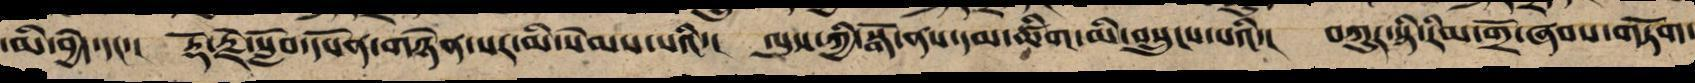་མི་བྱེད་དང་། རྡོ་རྗེ་སློབ་དཔོན་གཉེན་པར་མི་སེམས་པའི་། ལུས་ཀྱི་སྒོ་ནས་དམ་ཚིག་མི་བསྲུངས་པའི་། བཀུར་སྡི་རིམ་གྲོ་ཞབས་གཏོག་
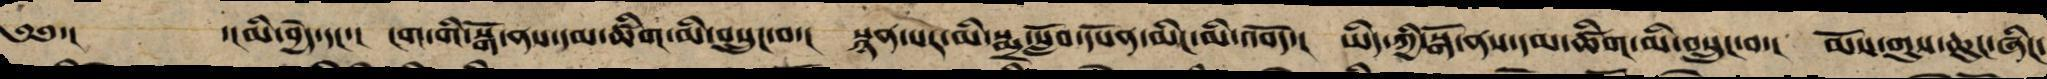༄༅་། ་།མི་བྱེད་དང་། ངག་གི་སྒོ་ནས་དམ་ཚིག་མི་བསྲུང་བ་། སྙན་པར་མི་སྨྲ་སློབ་དཔོན་མིང་མི་འབོད་། ཡིད་ཀྱི་སྒོ་ནས་དམ་ཚིག་མི་བསྲུང་བ་། མོས་གུས་ཆུང་ཞིང་
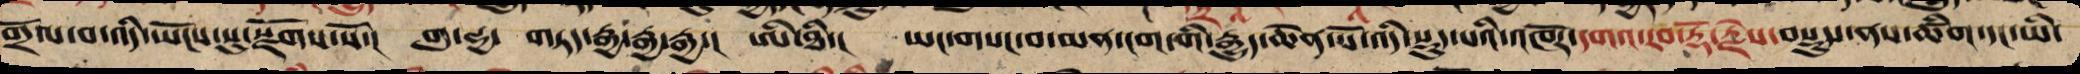གྲོལ་བ་འདི་ཡོངས་སུ་སྫོགས་སོ་། གུ་ཧྱ་ གཏད་རྒྱ་རྒྱ་རྒྱ་། ཨི་ཐི་། ཡང་གསང་བ་མན་ངག་གི་རྒྱུད་ཆེན་པོ་འདི་སྡུད་པའི་འཁོར་དགའ་རབ་རྡོ་རྗེས་བསྡུས་ནས་ཚིག་དང་ཡི་
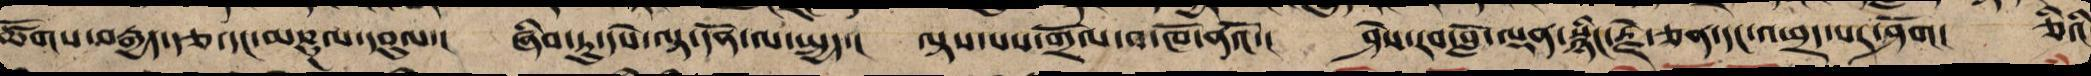ཚོགས་བརྒྱད་རྩ་དང་མཎྜལ་དབུལ་། ཞིབ་ཏུ་དཔེ་ལྟ་དོན་ལ་སྤྱད་། ལྟས་པས་གྲོལ་བ་ཁོ་ནའོ་། ཤེས་རབ་བློ་ལྡན་སྙིང་རྗེ་ཅན་དང་འཕྲད་པར་ཤོག། ཅིའི
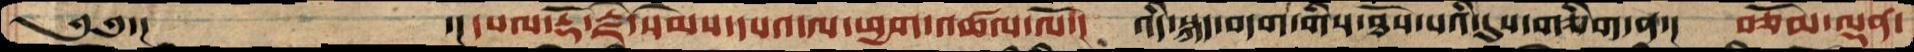༄༅་།    ་།དཔལ་རྡོ་རྗེ་སེམས་དཔའ་ལ་ཕྱག་འཚལ་ལོ་།  འདི་སྐད་བདག་གིས་ཐོས་པའི་དུས་གཅིག་ན་།  བཅོམ་ལྡན་
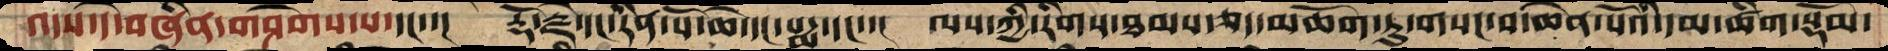འདས་དེ་བཞིན་གཤེགས་པ་དང་་།།  རྡོ་རྗེ་དང་རིན་པོ་ཆེ་དང་པདྨ་དང་་།  ལས་ཀྱི་རིགས་ཐམས་ཅད་མཆོག་ཏུ་གསང་བ་ཆེན་པོའི་དམ་ཚིག་སྡོམ་
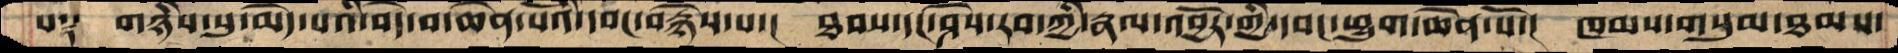པ༑   གཉིས་སུ་མེད་པའི་བདེ་བ་ཆེན་པོའི་དབང་བརྙེས་པ་།  ཐབས་དང་ཤེས་རབ་ཀྱི་རྣལ་འབྱོར་གྱི་དབང་ཕྱུག་ཆེན་པོ་།  ཁམས་གསུམ་ཐམས་
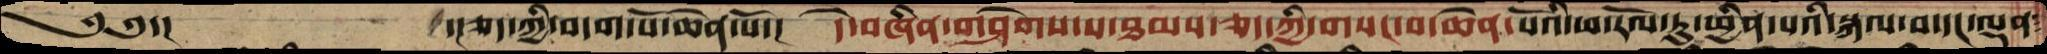༄༅་།            ་།ཅད་ཀྱི་བདག་པོ་ཆེན་པོ་།  དེ་བཞིན་གཤེགས་པ་ཐམས་ཅད་ཀྱི་གསང་བ་ཆེན་པོའི་ཕ་རོལ་ཏུ་ཕྱིན་པའི་སྐལ་བ་དང་ལྡན་
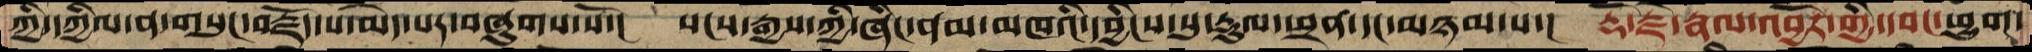ཀྱི་དཀྱིལ་ན་གསུང་བརྗོད་པ་མེད་པར་བཞུགས་སོ་།  སངས་རྒྱས་ཀྱི་ཞིང་ནམ་མཁའི་དབྱིངས་སུ་རྡུལ་ཕྲན་དང་མཉམ་པ་།  རྡོ་རྗེ་རྣལ་འབྱོར་གྱི་དབང་ཕྱུག་
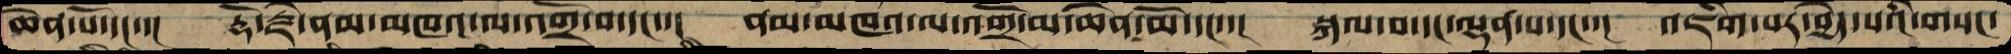ཆེན་པོ་དང་་།  རྡོ་རྗེ་ནམ་མཁའ་ལ་འགྲོ་བ་དང་་།  ནམ་མཁའ་ལ་འགྲོ་མ་ཆེན་མོ་དང་་།  སྐལ་བ་དང་ལྡན་པ་དང་་།  འཇིག་པར་བྱེད་པའི་གསང་
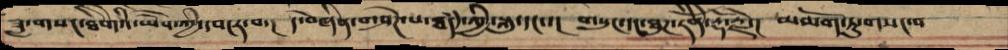ཟླ་གསང་ཐིེགའི་ཡཻས་ཀྱི་དབངར་བ་།  དེ་བཞིན་གཤེཌ་པ་ཐཾད་ཀྱི་་སྐུ་དང་་།  གསུང་དང་ཐུཌ་རིོནེ་རྡོ་རྗེ་།  མཆོག་ཏུ་གསང་བ
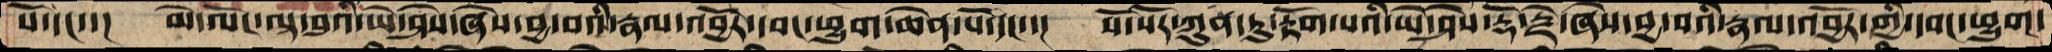པོ་དང་་།  མེ་ལོང་ལྟ་བུའི་ཡེ་ཤེས་ཞེས་བྱ་བའི་རྣལ་འབྱོར་དབང་ཕྱུག་ཆེན་པོ་དང་་།  སོ་སོར་ཀུན་ཏུ་རྟོག་པའི་ཡེ་ཤེས་རྡོ་རྗེ་ཞེས་བྱ་བའི་རྣལ་འབྱོར་གྱི་དབང་ཕྱུག་
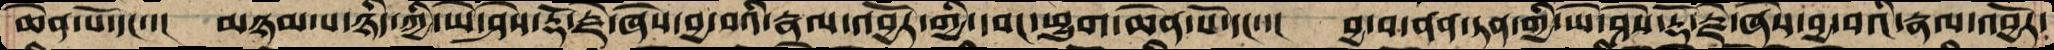ཆེན་པོ་དང་་།  མཉམ་པ་ཉིད་ཀྱི་ཡེ་ཤེས་རྡོ་རྗེ་ཞེས་བྱ་བའི་རྣལ་འབྱོར་གྱི་དབང་ཕྱུག་ཆེན་པོ་དང་་།  བྱ་བ་ནན་ཏན་གྱི་ཡེ་ཤེས་རྡོ་རྗེ་ཞེས་བྱ་བའི་རྣལ་འབྱོར་
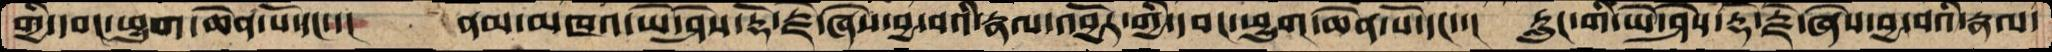གྱི་དབང་ཕྱུག་ཆེན་པོ་དང་་།  ནམ་མཁའ་ཡེ་ཤེས་རྡོ་རྗེ་ཞེས་བྱ་བའི་རྣལ་འབྱོར་གྱི་དབང་ཕྱུག་ཆེན་པོ་དང་་།  རླུང་གི་ཡེ་ཤེས་རྡོ་རྗེ་ཞེས་བྱ་བའི་རྣལ་
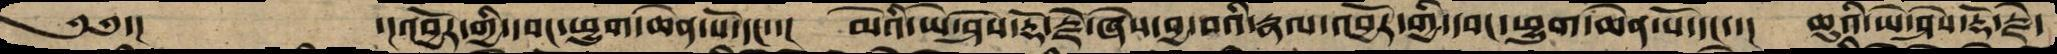༄༅་།      ་།འབྱོར་གྱི་དབང་ཕྱུག་ཆེན་པོ་དང་་།  མེའི་ཡེ་ཤེས་རྡོ་རྗེ་ཞེས་བྱ་བའི་རྣལ་འབྱོར་གྱི་དབང་ཕྱུག་ཆེན་པོ་དང་་།  ཆུའི་ཡེ་ཤེས་རྡོ་རྗེ་
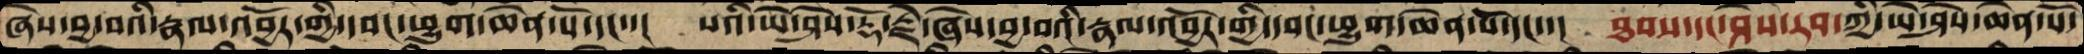ཞེས་བྱ་བའི་རྣལ་འབྱོར་གྱི་དབང་ཕྱུག་ཆེན་པོ་དང་་།  སའི་ཡེ་ཤེས་རྡོ་རྗེ་ཞེས་བྱ་བའི་རྣལ་འབྱོར་གྱི་དབང་ཕྱུག་ཆེན་པོ་དང་་།  ཐབས་དང་ཤེས་རབ་ཀྱི་ཡེ་ཤེས་ཆེན་པོ་
